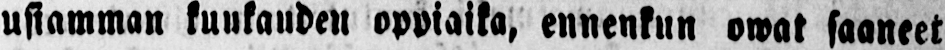usiamman kuukauden oppiaika, ennenkun owat saaneet
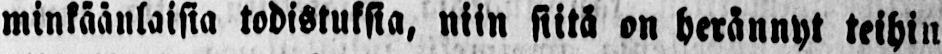minkäänlaisia todistuksia, niin siitä on herännyt teihin
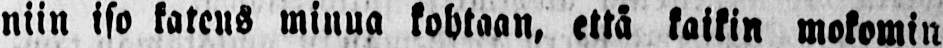niin iso kateus minua kohtaan, että kaikin mokomin
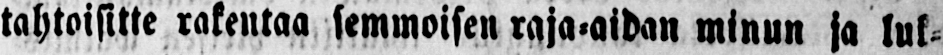tahtoisitte rakentaa semmoisen raja-aidan minun ja luk-
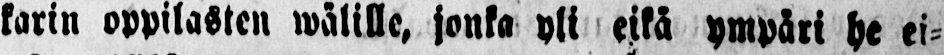karin oppilasten wälille, jonka yli eikä ympäri he ei-
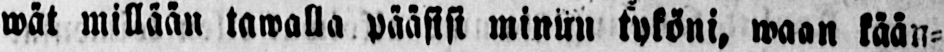wät millään tawalla pääsisi minun tyköni, waan kään-
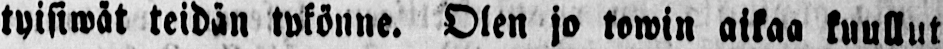tyisiwät teidän tykönne. Olen jo towin aikaa kuullut
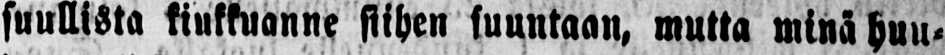suullista kiukkuanne siihen suuntaan, mutta minä huu-
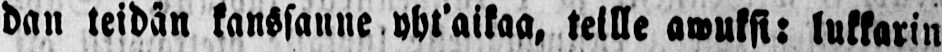dan teidän kanssanne yht’aikaa, teille awuksi: lukkarin
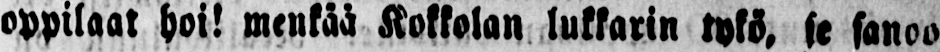oppilaat hoi! menkää Kokkolan lukkarin tykö. se sanoo
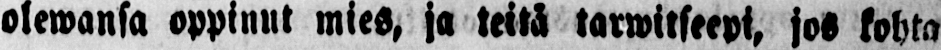olewansa oppinut mies, ja teitä tarwitseepi, jos kohta
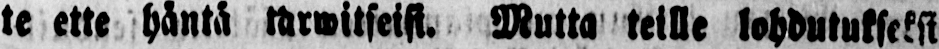te ette häntä tarwitseisi. Mutta teille lohdutukseksi
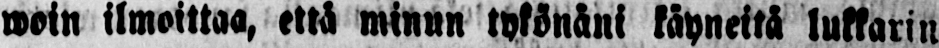woin ilmoittaa, että minun tykönäni käyneitä lukkarin
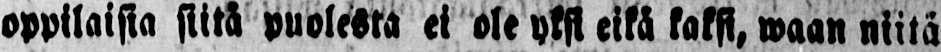oppilaista siitä puolesta ei ole yksi eikä kaksi, waan niitä
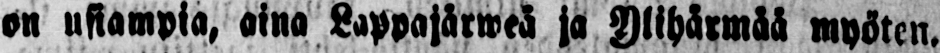on usiampia, aina Lappajärweä ja Ylihärmää myöten.
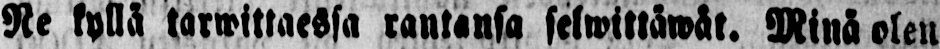Ne kyllä tarwittaessa rantansa selwittäwät. Minä olen
